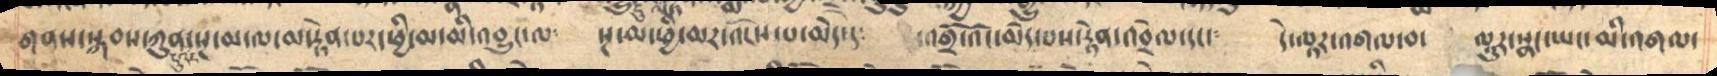གནས་སྐབས་ཀུན་སྔ་མ་ལ་མ་རྟེན་པར་ཕྱི་མ་མི་འབྱུང་ལ༴  སྔ་མ་ཕྱི་མར་འོངས་པ་མེད་དེ༴   འགྲོ་འོང་མེད་པས་རྟེན་འབྲེལ་དང༴  དེ་ལྟར་འགལ་བ་   མྱུར་སྣང་ཡང་མི་འགལ་
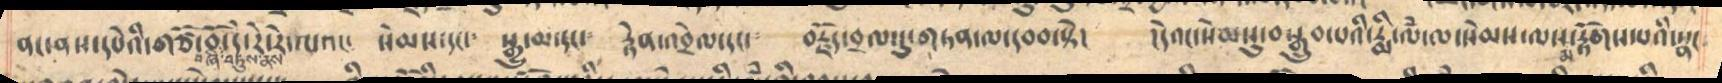ནང་ནས་དཔེའི་གཙོ་བོ་བཞི་བཏུས་ནས་དེ་རེ་རེ་ལའང༴  སེམས་དང་༴  སྒྱུ་མ་དང་༴   རྟན་འབྲེལ་དང་༴   བརྗོད་བྲལ་དུ་གཏན་ལ་དབབ་སྟེ།    །དེའང་སེམསུ་བསྒྲུབ་པའི་རྨི་ལཾ་ལ་སེམས་ལས་མ་རྟོགས་འི་སྣང
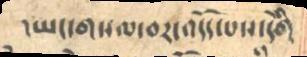།ཡང་དགསལ་བར་འདོད་པས་དེགི
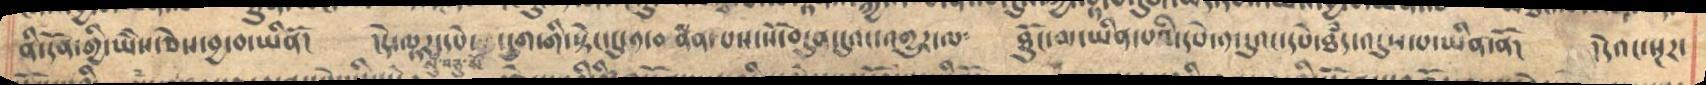ནི་དོན་གྱི་ཡེེས་ཅེས་བྱ་བ་ཡིནོ།  །དེ་ལྟར་དཔེ་སུམ་ཅུ་སོ ་དྲུག་གི་སྟེང་དུ་༡་བསྟན་པས་སོ་བདུན་དུའང་འགྱུར་ལ༴   ཐོུང་མ་ཡིན་པའི་དཔེ་༡དུའང་དཔེ་ཐཾད་འདུས་པ་ཡིན་ནོ།   །དེའང་སྔར་
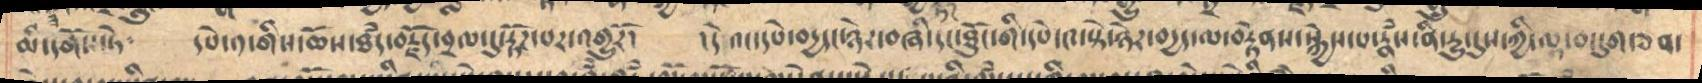མོ་དགོངས་ཏེ༴   དཔེ་༡་གིས་ཆོས་ཐཾད་བརྗོད་བྲལ་དུ་རྟོཌ་པར་འགྱུརོ།  །  དེའང་དཔེ་བདྱད་ཉེར་བཞི་དང་ཐོུང་གི་དཔེ་༤་སྟེ་ཉེར་བདྱད་ལ་བརྟེནས་སྐྱེས་པ་རྣཾས་ནི་དྱུ་དུས་ཀྱི་ལྟ་བ་དུག་ཅན་
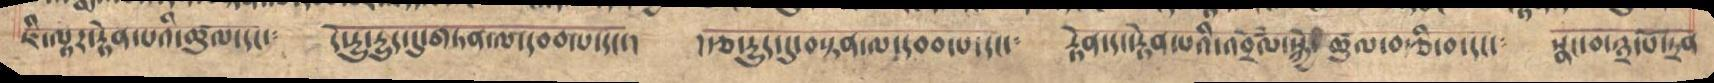ཇི་ལྟར་རྟེན་པའི་ཚུལ་དང༴  དེ་རྱུ་རྱུད་དུ་གཏན་ལ་དབབ་པ་དང། །རྩ་རྱུད་དུ་བསྟན་ལ་དབབ་པ་དང་  རྟེ་དང་རྟེན་པའི་འབྲེལཾ་སྐྱེ་ཚུལ་བརྩི་བ་དང་༴  སྣང་བ་༣་གསུམ་པ་ཏྲན
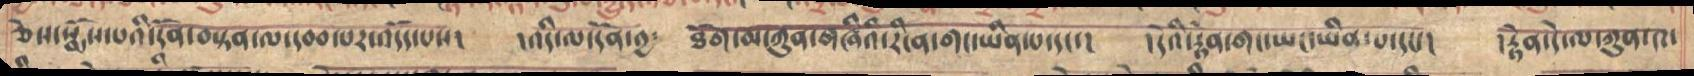ཅེས་སྨོས་པའི་དོན་བསྟན་ལ་དབབ་པར་འདོད་པས།  །འདི་ལ་དོན་བྱ༴  ཐོག་མ་ཀུན་གཞིའི་རངིན་གང་ཡིན་པ་དང་། །རྟེན་དེ་ལ་ཀུན་༩་
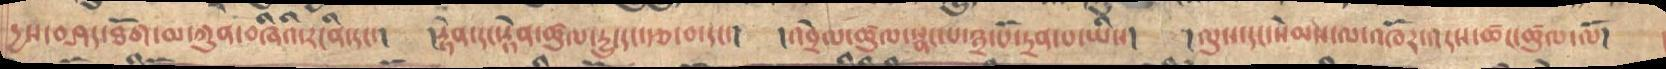དྱས་བཤད་ཐོག་མ་ཀུན་བཞིའི་རངིན་དང་་།  །རྟེན་དང་རྟེན་ཚུལ་རྱུ་དང་རྩ་བ་དང་།  །འབྲེལ་ཚུལ་སྣང་པ་༣་པོ་ཏྲན་པ་ཡིས།   །ལུས་དང་སེམས་ལ་འཁོར་འདས་ཚང་ཚུལ་ལོ།
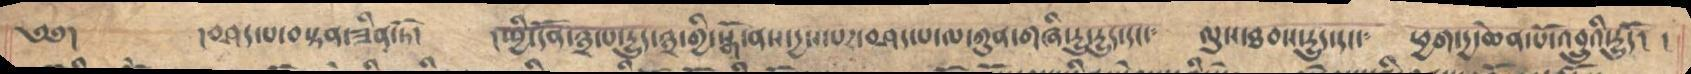༄༅།   །བཤད་པ་བསྟན་ཟིན་ཏོ། །ཕྱི་དོན་༣་པ་རྱུད་༣་གྱི་སྒོ་ནས་དྱས་པར་བཤད་པ་ལ་ཀུན་གཞི་རྱུ་རྱུད་དང༴  ལུས་ཐབས་རྱུད་དང༴  ཕྱག་དྱ་ཆེན་པོ་འབྲུའི་རྱུདོ།   །
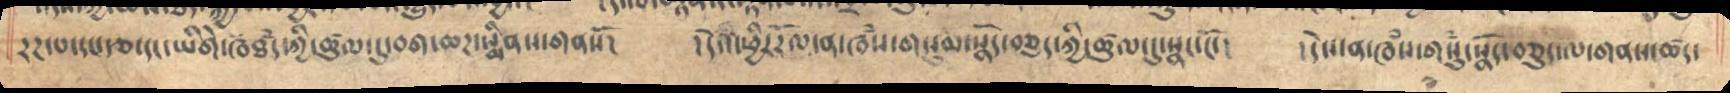དྲཌ་པ་དང་རྩ་དང་ཡིགེ་ཁཐཾད་ཀྱི་ཚུལ་དུ་བག་ཆཌ་སྨིནས་གནསོ།   །དེའི་ཕྱིརརོལ་ན་ཁཾས་གསུམ་སྣོད་བཅུད་ཀྱི་ཚུལ་དུ་སྣང་ངོ་།     ། དེས་ན་ཁཾས་གསུཾ་སྣོད་བཅུད་ལ་གནས་ཚད་
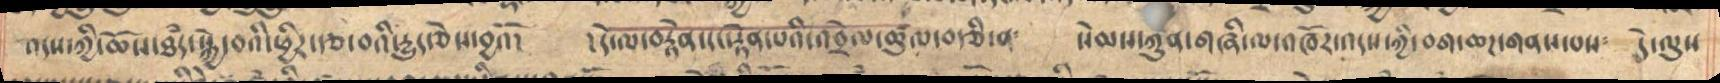འདས་ཀྱི་ཆོས་ཐཾད་སྐྱེ་བའི་ཕྱིར་རྩ་བའི་རླུང་ཅེས་བྱའོ།   ། དེ་ལ་བརྟེན་དང་རྟེན་པའི་འབྲེལ་ཚུལ་བརྩི་ན༴   སེམས་ཀུན་གཞི་ལ་འཁོར་འདས་ཀྱི་བག་ཆཌ་གནས་པས༴  དེ་ལུས
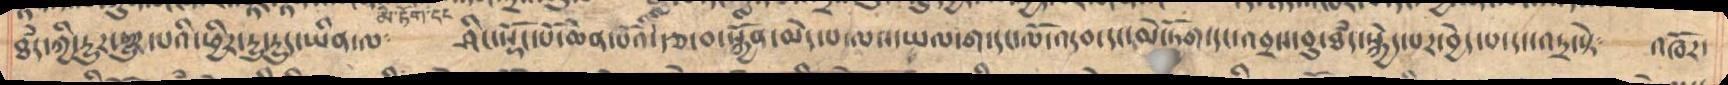ཐཾད་ཀྱི་དྱུར་གྱུར་པའི་ཕྱིར་དྱུ་དྱུད་ཡིན་ལ༴   ཤིང་སྡོང་པོ་ཆེན་པོའི་རྩ་བ་སྐྱོན་མེད་པ་ལའ་ཡལ་ག་དང་ལོ་འདབ་དང་མེ་ཏོག་དང་འབྲས་བུ་ཐཾད་སྐྱེད་པར་བྱེད་པ་དང་འདྲ་སྟེ༴   འཁོར་
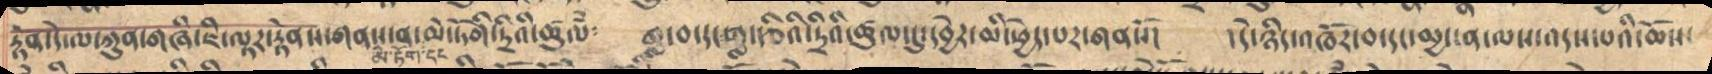རྟེན་དེ་ལ་ཀྱུན་གཞི་ཇི་ལྟར་རྟེནས་གནས་ན་མེ་ཏོག་དྲིའི་ཚུལ༴   གླ་བ་དང་གླ་རྩིའི་དྲིའི་ཚུལ་དུ་དབྱེར་མི་ཕྱེད་པར་གནསོ།   །དེ་ཉིད་འཁོར་བ་དང་མྱ་ངན་ལས་འདས་པའི་ཆོས་
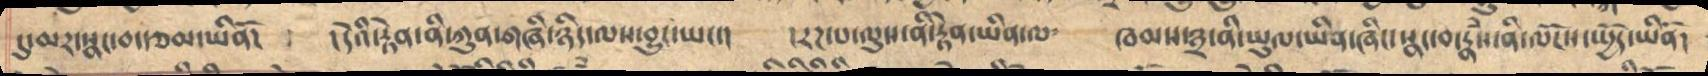དུ་མར་སྣང་བ་རྩ་ཡིནོ།   །དེའི་རྟེན་ནི་ཀུན་གཞི་ཉིད་ལས་བྱུང་ཡང་།  །རཌ་པ་ལུས་ནི་རྟེན་ཡིན་ལ༴   ཁམས་༣་ནི་ཡུལ་ཡིན་ཞིང་སྣང་བ་རྣཾས་ནི་ལོངས་སྤྱོད་ཡིནོ།
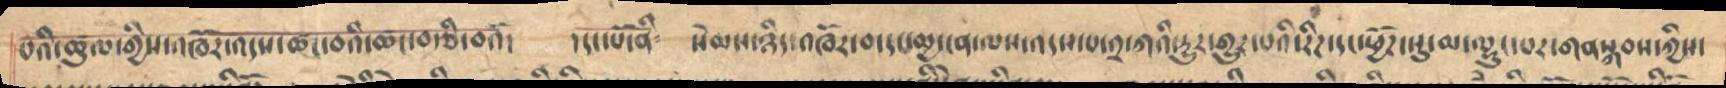པའི་ཚུལ་གྱིས་འཁོར་འདས་ཚང་བརྩི་བའཾ།  །དང་པོ་ནི༴  སེམས་ཉིད་འཁོར་བདདང་མྱ་ངན་ལས་འདས་པ་༢་ཀའི་རྱུར་གྱུར་པའི་རིཌ་དང་ཕྱོཌ་སུ་མ་ལྷུང་པར་པར་གནསྐབས་ཀྱིས་
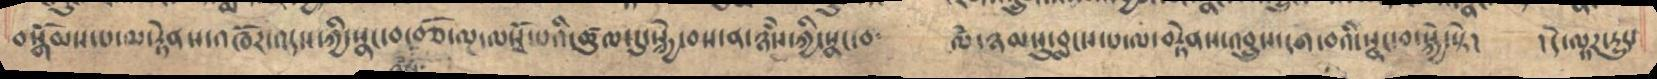བསྒོམས་པ་མ་རྟེནས་འཁོར་འདས་ཀྱི་སྣང་བ་བཅོ་ལྔ་ལསྭོ་པའི་ཚུལ་དུ་སྐྱེ་བས་ན་ཉཾས་ཀྱི་སྣང་བ༴  ལཾ་ཉམསུ་བླངས་པ་ལ་བརྟེནས་འབྲུས་དག་བའི་སྣང་བ་སྐྱེ་སྟེ།   །དེ་ལྟར་དྱུད་
